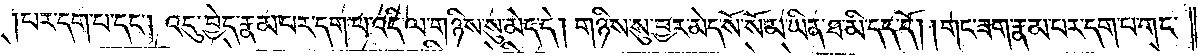པར་དག་པ་དང༌། འདུ་བྱེད་རྣམ་པར་དག་པ་འདི་ལ་གཉིས་སུ་མེད་དེ། གཉིས་སུ་བྱར་མེད་སོ་སོ་མ་ཡིན་ཐ་མི་དད་དོ། །གང་ཟག་རྣམ་པར་དག་པ་གང་
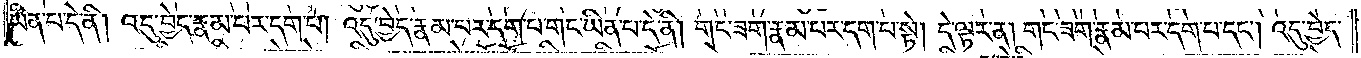ཡིན་པ་དེ་ནི། འདུ་བྱེད་རྣམ་པར་དག་པ། འདུ་བྱེད་རྣམ་པར་དག་པ་གང་ཡིན་པ་དེ་ནི། གང་ཟག་རྣམ་པར་དག་པ་སྟེ། དེ་ལྟར་ན། གང་ཟག་རྣམ་པར་དག་པ་དང༌། འདུ་བྱེད་
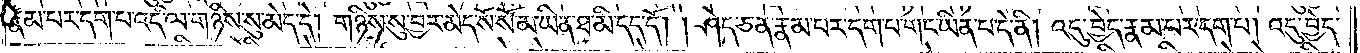རྣམ་པར་དག་པ་འདི་ལ་གཉིས་སུ་མེད་དེ། གཉིས་སུ་བྱར་མེད་སོ་སོ་མ་ཡིན་ཐ་མི་དད་དོ། །ཤེད་ཅན་རྣམ་པར་དག་པ་གང་ཡིན་པ་དེ་ནི། འདུ་བྱེད་རྣམ་པར་དག་པ། འདུ་བྱེད་
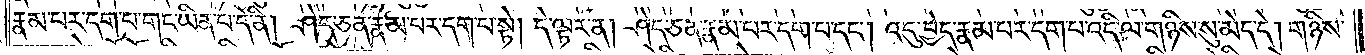རྣམ་པར་དག་པ་གང་ཡིན་པ་དེ་ནི། ཤེད་ཅན་རྣམ་པར་དག་པ་སྟེ། དེ་ལྟར་ན། ན་ཤེད་ཅན་རྣམ་པར་དག་པ་དང༌། འདུ་བྱེད་རྣམ་པར་དག་པ་འདི་ལ་གཉིས་སུ་མེད་དེ། གཉིས་
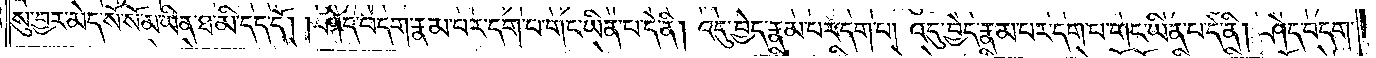སུ་བྱར་མེད་སོ་སོ་མ་ཡིན་ཐ་མི་དད་དོ། །ཤེད་བདག་རྣམ་པར་དག་པ་གང་ཡིན་པ་དེ་ནི། འདུ་བྱེད་རྣམ་པར་དག་པ། འདུ་བྱེད་རྣམ་པར་དག་པ་གང་ཡིན་པ་དེ་ནི། ཤེད་བདག་
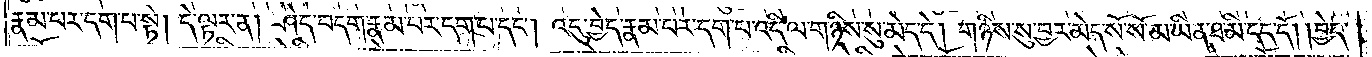རྣམ་པར་དག་པ་སྟེ། དེ་ལྟར་ན། ཤེད་བདག་རྣམ་པར་དག་པ་དང༌། འདུ་བྱེད་རྣམ་པར་དག་པ་འདི་ལ་གཉིས་སུ་མེད་དེ། གཉིས་སུ་བྱར་མེད་སོ་སོ་མ་ཡིན་ཐ་མི་དད་དོ། །བྱེད་
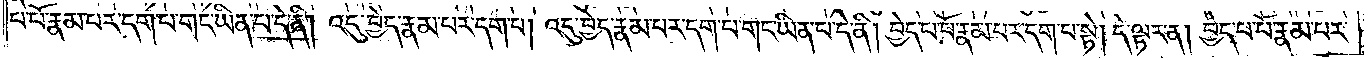པ་པོ་རྣམ་པར་དག་པ་གང་ཡིན་པ་དེ་ནི། འདུ་བྱེད་རྣམ་པར་དག་པ། འདུ་བྱེད་རྣམ་པར་དག་པ་གང་ཡིན་པ་དེ་ནི། བྱེད་པ་པོ་རྣམ་པར་དག་པ་སྟེ། དེ་ལྟར་ན། བྱེད་པ་པོ་རྣམ་པར་
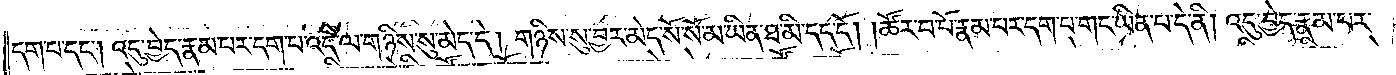དག་པ་དང༌། འདུ་བྱེད་རྣམ་པར་དག་པ་འདི་ལ་གཉིས་སུ་མེད་དེ། གཉིས་སུ་བྱར་མེད་སོ་སོ་མ་ཡིན་ཐ་མི་དད་དོ། །ཚོར་བ་པོ་རྣམ་པར་དག་པ་གང་ཡིན་པ་དེ་ནི། འདུ་བྱེད་རྣམ་པར་
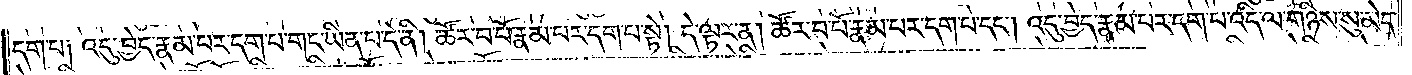དག་པ། འདུ་བྱེད་རྣམ་པར་དག་པ་གང་ཡིན་པ་དེ་ནི། ཚོར་བ་པོ་རྣམ་པར་དག་པ་སྟེ། དེ་ལྟར་ན། ཚོར་བ་པོ་རྣམ་པར་དག་པ་དང༌། འདུ་བྱེད་རྣམ་པར་དག་པ་འདི་ལ་གཉིས་སུ་མེད་
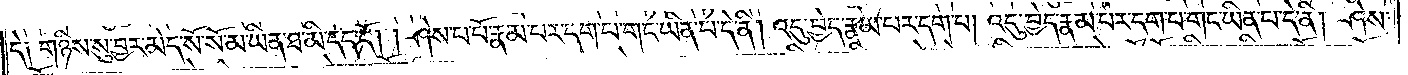དེ༑ གཉིས་སུ་བྱར་མེད་སོ་སོ་མ་ཡིན་ཐ་མི་དད་དོ། །ཤེས་པ་པོ་རྣམ་པར་དག་པ་གང་ཡིན་པ་དེ་ནི། འདུ་བྱེད་རྣམ་པར་དག་པ། འདུ་བྱེད་རྣམ་པར་དག་པ་གང་ཡིན་པ་དེ་ནི། ཤེས་
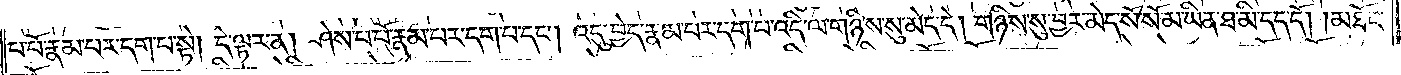པ་པོ་རྣམ་པར་དག་པ་སྟེ། དེ་ལྟར་ན། ཤེས་པ་པོ་རྣམ་པར་དག་པ་དང༌། འདུ་བྱེད་རྣམ་པར་དག་པ་འདི་ལ་གཉིས་སུ་མེད་དེ། གཉིས་སུ་བྱར་མེད་སོ་སོ་མ་ཡིན་ཐ་མི་དད་དོ། །མཐོང་
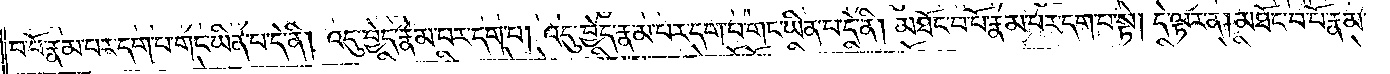བ་པོ་རྣམ་པར་དག་པ་གང་ཡིན་པ་དེ་ནི། འདུ་བྱེད་རྣམ་པར་དག་པ། འདུ་བྱེད་རྣམ་པར་དག་པ་གང་ཡིན་པ་དེ་ནི། མཐོང་བ་པོ་རྣམ་པར་དག་པ་སྟེ། དེ་ལྟར་ན། མཐོང་བ་པོ་རྣམ་
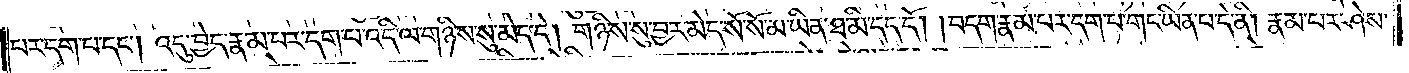པར་དག་པ་དང༌། འདུ་བྱེད་རྣམ་པར་དག་པ་འདི་ལ་གཉིས་སུ་མེད་དེ། གཉིས་སུ་བྱར་མེད་སོ་སོ་མ་ཡིན་ཐ་མི་དད་དོ། །བདག་རྣམ་པར་དག་པ་གང་ཡིན་པ་དེ་ནི། རྣམ་པར་ཤེས་
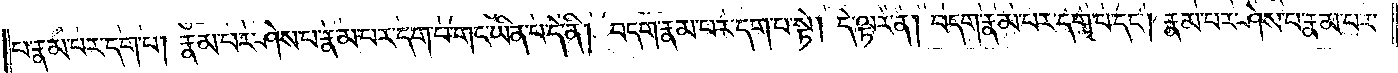པ་རྣམ་པར་དག་པ། རྣམ་པར་ཤེས་པ་རྣམ་པར་དག་པ་གང་ཡིན་པ་དེ་ནི། བདག་རྣམ་པར་དག་པ་སྟེ། དེ་ལྟར་ན། བདག་རྣམ་པར་དག་པ་དང༌། རྣམ་པར་ཤེས་པ་རྣམ་པར་
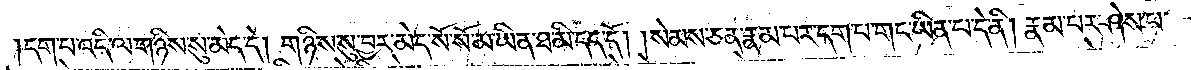དག་པ་འདི་ལ་གཉིས་སུ་མེད་དེ། གཉིས་སུ་བྱར་མེད་སོ་སོ་མ་ཡིན་ཐ་མི་དད་དོ། །སེམས་ཅན་རྣམ་པར་དག་པ་གང་ཡིན་པ་དེ་ནི། རྣམ་པར་ཤེས་པ་
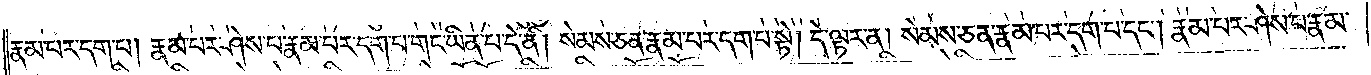རྣམ་པར་དག་པ། རྣམ་པར་ཤེས་པ་རྣམ་པར་དག་པ་གང་ཡིན་པ་དེ་ནི། སེམས་ཅན་རྣམ་པར་དག་པ་སྟེ། དེ་ལྟར་ན། སེམས་ཅན་རྣམ་པར་དག་པ་དང༌། རྣམ་པར་ཤེས་པ་རྣམ་
